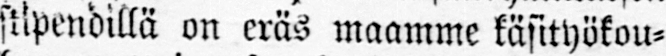stipendillä on eräs maamme käsityökou-
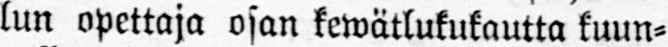lun opettaja osan kewätlukukautta kuun-
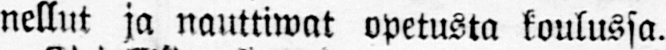nellut ja nauttiwat opetusta koulussa.
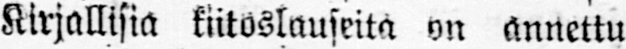Kirjallisia kiitoslauseita on annettu
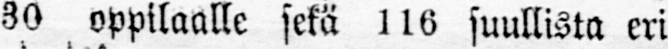30 oppilaalle sekä 116 suullista eri
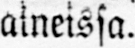aineissa.
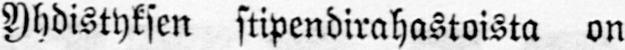Yhdistyksen stipendirahastoista on
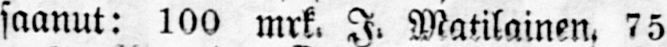saanut: 100 mrk. I. Matilainen, 75
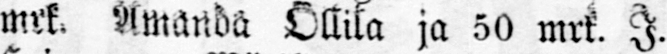mrk. Amanda Ollila ja 50 mrk. I.
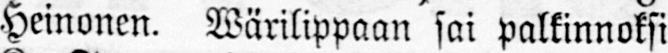Heinonen. Wärilippaan sai palkinnoksi
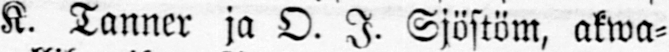K. Tanner ja O. I. Sjöstöm, akwa-
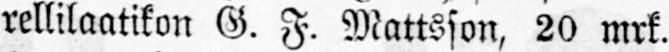rellilaatikon G. F. Mattsson, 20 mrk.
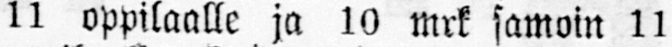11 oppilaalle ja 10 mrk samoin 11
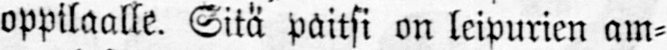oppilaalle. Sitä paitsi on leipurien am-
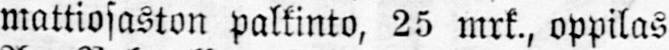mattiosaston palkinto, 25 mrk., oppilas
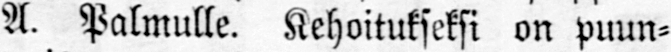A. Palmulle. Kehoitukseksi on puun-
